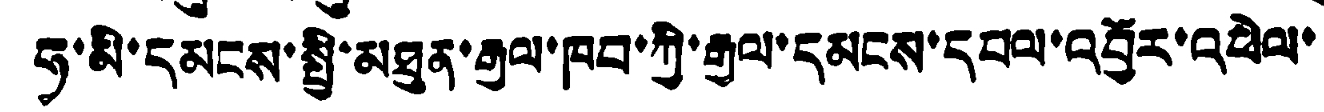ཧྭ་མི་དམངས་སྤྱི་མཐུན་རྒྱལ་ཁབ་ཀྱི་རྒྱལ་དམངས་དཔལ་འབྱོར་འཕེལ་
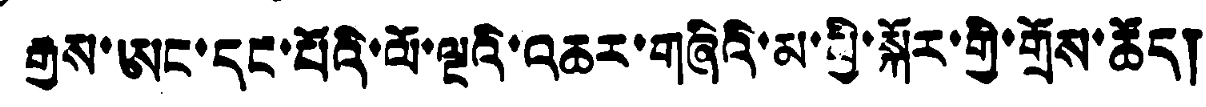རྒྱས་ཨང་དང་པོའི་ལོ་ལྔའི་འཆར་གཞིའི་མ་ཕྱི་སྐོར་གྱི་གྲོས་ཚོད།
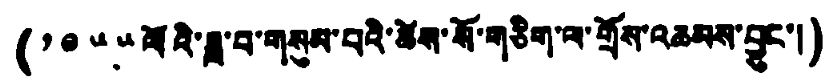(༡༩༥༥ ལོའི་ཟླ་བ་གསུམ་པའི་ཚེས་སོ་གཅིག་ལ་གྲོས་འཆམས་བྱུང་།)
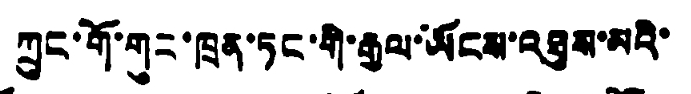ཀྲུང་གོ་གུང་ཁྲན་ཏང་གི་རྒྱལ་ཡོངས་འཐུས་མའི་
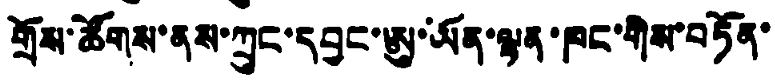གྲོས་ཚོགས་ནས་ཀྲུང་དབྱང་ཨུ་ཡོན་ལྷན་ཁང་གིས་བཏོན་
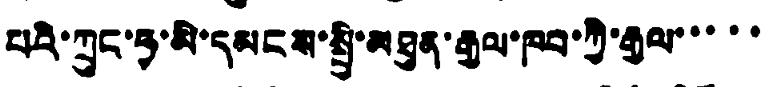པའི་ཀྲུང་ཧྭ་མི་དམངས་སྤྱི་མཐུན་རྒྱལ་ཁབ་ཀྱི་རྒྱལ་་་་་
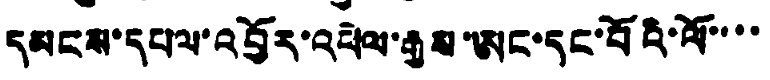དམངས་དཔལ་འབྱོར་འཕེལ་རྒྱས་ཨང་དང་པོའི་ལོ་་་་
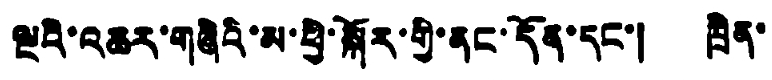ལྔའི་འཆར་གཞིའི་མ་ཕྱི་སྐོར་གྱི་ནང་དོན་དང་། ཁྲིན་
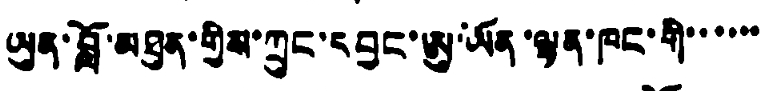ཡུན་བློ་མཐུན་གྱིས་ཀྲུང་དབྱང་ཨུ་ཡོན་ལྷན་ཁང་གི་་་་་་
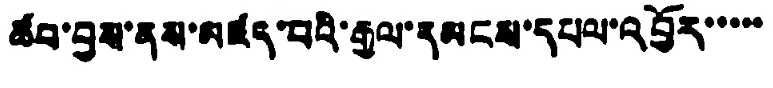ཚབ་བྱས་ནས་མཛད་པའི་རྒྱལ་དམངས་དཔལ་འབྱོར་་་་་
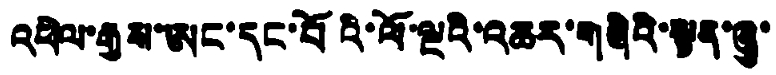འཕེལ་རྒྱས་ཨང་དང་པོའི་ལོ་ལྔའི་འཆར་གཞིའི་སྟན་ཞུ་
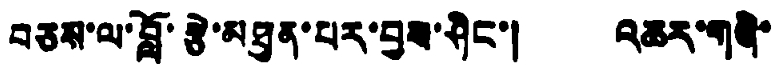བཅས་ལ་བློ་རྩེ་མཐུན་པར་བྱས་ཤིང་། འཆར་གཞི་
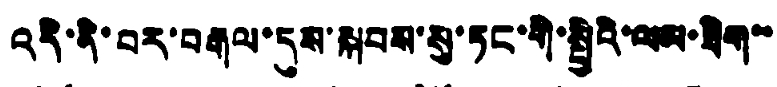འདི་ནི་བར་བརྒལ་དུས་སྐབས་སུ་ཏང་གི་སྤྱིའི་ལམ་ཐིག་་
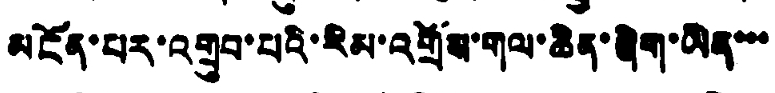མངོན་པར་འགྲུབ་པའི་རིམ་འགྲོས་གལ་ཆེན་ཞིག་ཡིན་་་
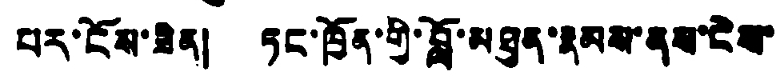པར་ངོས་ཟིན། ཏང་ཁྱོན་གྱི་བློ་མཐུན་རྣམས་ནས་ངེས་
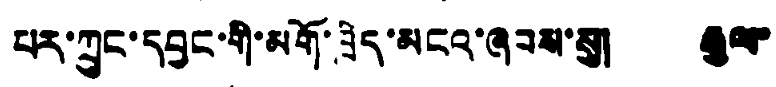པར་ཀྲུང་དབྱང་གི་མགོ་ཁྲིད་མངའ་ཞབས་སུ། རྒྱལ་
